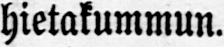hietakummun.
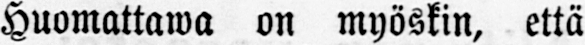Huomattawa on myöskin, että
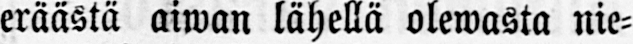eräästä aiwan lähellä olewasta nie-
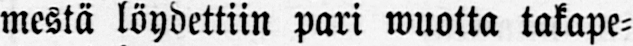mestä löydettiin pari wuotta takape-
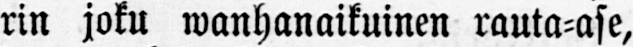rin joku wanhanaikuinen rauta-ase,
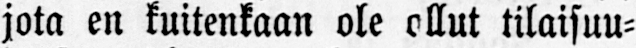jota en kuitenkaan ole ollut tilaisuu-
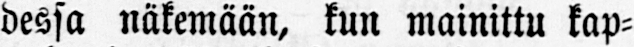dessa näkemään, kun mainittu kap-
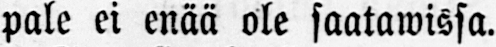pale ei enää ole saatawissa.
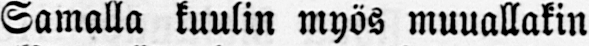Samalla kuulin myös muuallakin
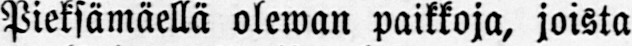Pieksämäellä olewan paikkoja, joista
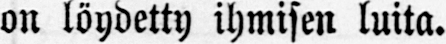on löydetty ihmisen luita.
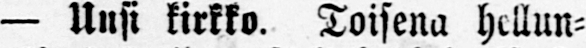— Uusi kirkko. Toisena hellun-
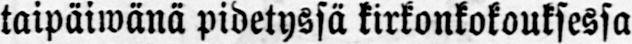taipäiwänä pidetyssä kirkonkokouksessa
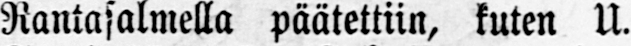Rantasalmella päätettiin, kuten U.
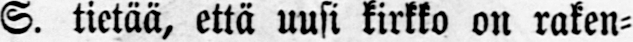S. tietää, että uusi kirkko on raken-
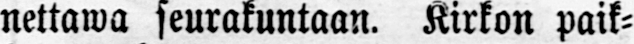nettawa seurakuntaan. Kirkon paik-
